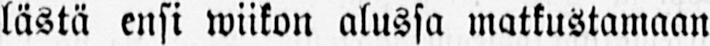lästä ensi wiikon alussa matkustamaan
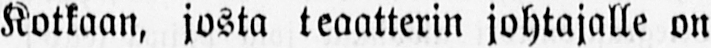Kotkaan, josta teaatterin johtajalle on
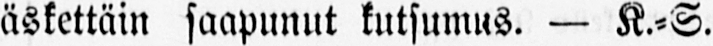äskettäin saapunut kutsumus. — K.-S.
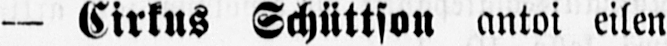— Cirkus Schüttson antoi eilen
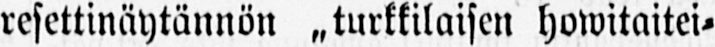resettinäytännön ˶turkkilaisen howitaitei-
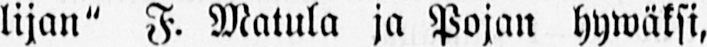lijan" F. Matula ja Pojan hywäksi,
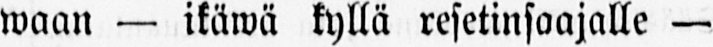waan — ikäwä kyllä resetinsaajalle —
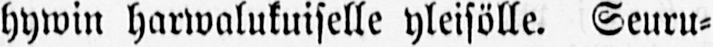hywin harwalukuiselle yleisölle. Seuru-
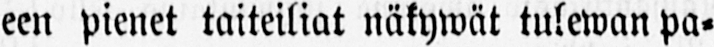een pienet taiteiliat näkywät tulewan pa-
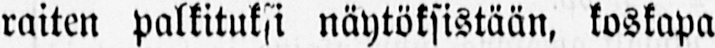raiten palkituksi näytöksistään, koskapa
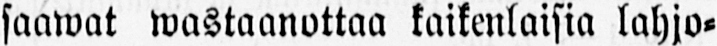saawat wastaanottaa kaikenlaisia lahjo-
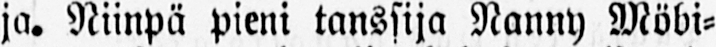ja. Niinpä pieni tanssija Nanny Möbi-
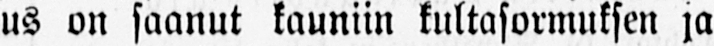us on saanut kauniin kultasormuksen ja
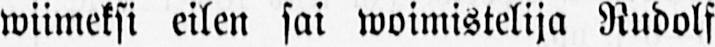wiimeksi eilen sai woimistelija Rudolf
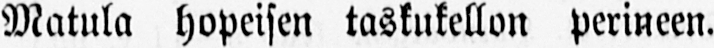Matula hopeisen taskukellon perineen.
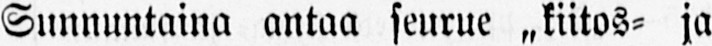Sunnuntaina antaa seurue ˶kiitos- ja
